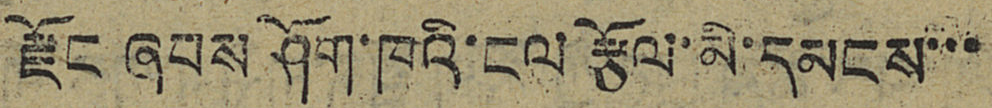རྫོང ཞབས ཤོག་ཁའི་ངལ་རྩོལ་མི་དམངས་་་
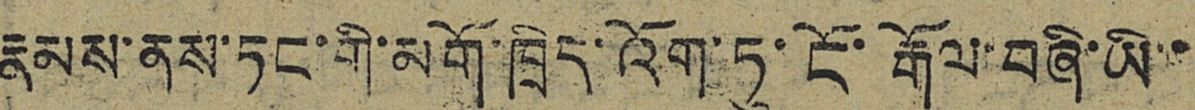རྣམས་ནས་ཏང་གི་མགོ་ཁྲིད་འོག་ཏུ་ངོ་རྒོལ་བཞི་ཡི་་
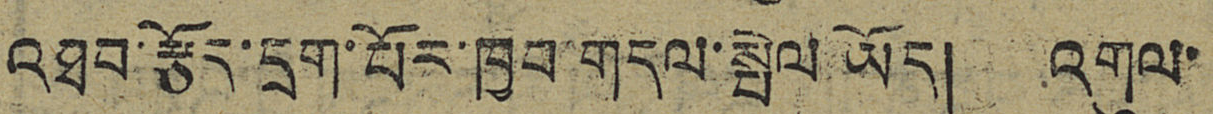འཐབ་རྩོད་དྲག་པོར་ཁྱབ་གདལ་སྤེལ ཡོད། འགུལ་
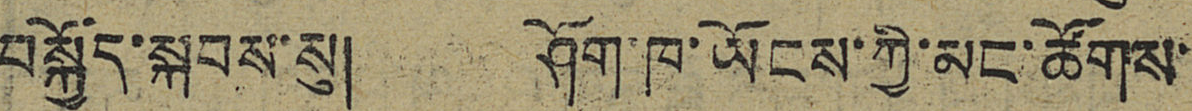བསྐྱོད་སྐབས་སུ། ཤོག་ཁ་ཡོངས་གྱི་མང་ཚོགས་
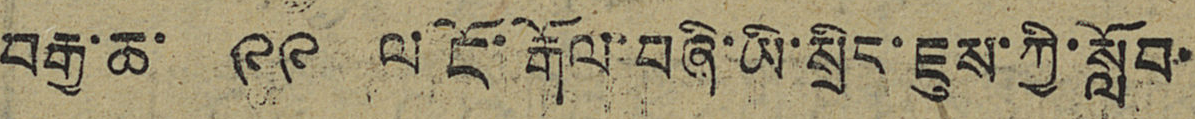བརྒྱ་ཆ་ ༩༩ ལ་ངོ་རྒོལ་བཞི་ཡི་སྲིང་ཇུས་ཀྱི་སློབ་
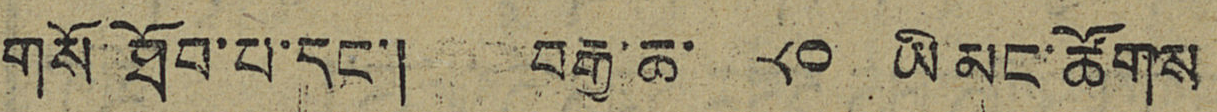གསོ་ཐོབ་པ་དང་། བརྒྱ་ཆ་ ༨༠ ཡི་མང་ཚོགས
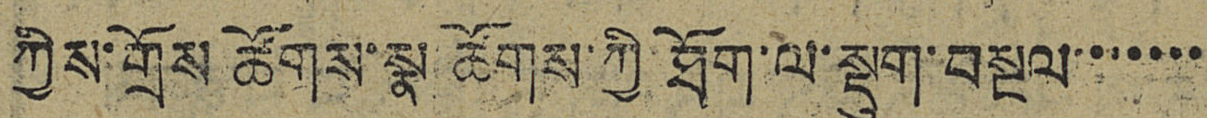ཀྱིས་གྲོས་ཚོགས་སྣ ཚོགས་ཀྱི་ཐོག་ལ་སྡུག་བསྔལ་་་་་་་
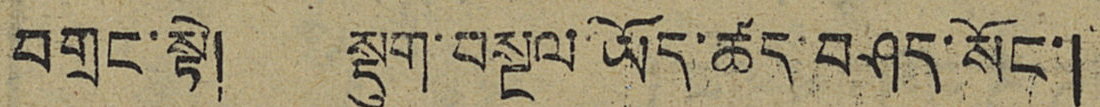བགྲང་སྟེ། སྡུག་བསྔལ་ཡོད་ཚད་བཤད་སོང་།
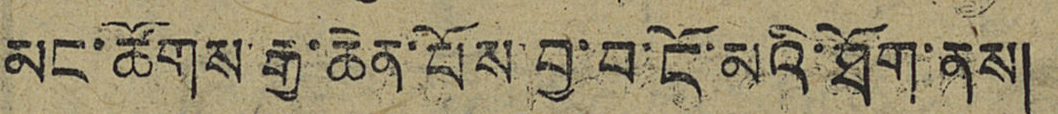མང་ཚོགས་རྒྱ་ཆེན་པོས་བྱས་བ་ངོ་མའི་ཐོག་ནས།
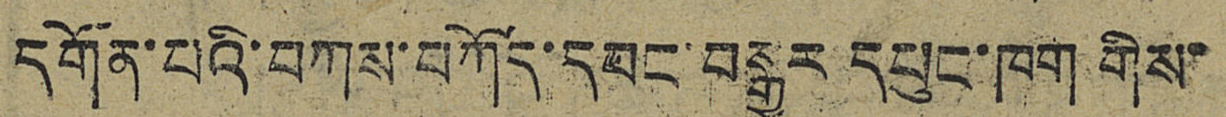དགོན་པའི་བཀས་བཀོད་དབང་བསྒྱུར་དཔུང་ཁག་གིས་
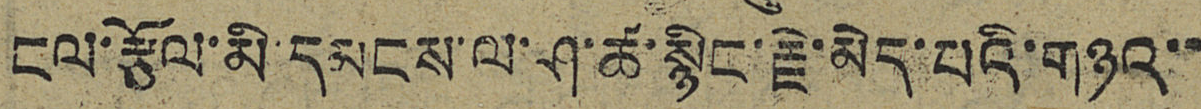ངལ་རྩོལ་མི་དམངས་ལ་ཤ་ཚ་སྙིང་རྗེ་མེད་པའི་གཉའ་་
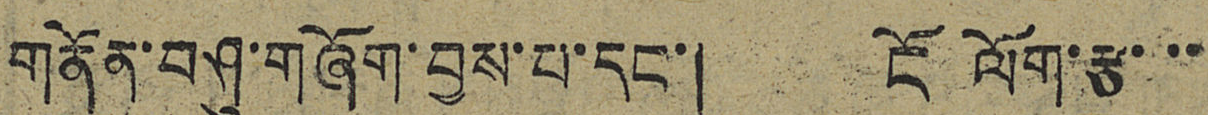གནོན་བཤུ་གཞོག་བྱས་པ་དང་། ངོ ལོག་རྩ་་་
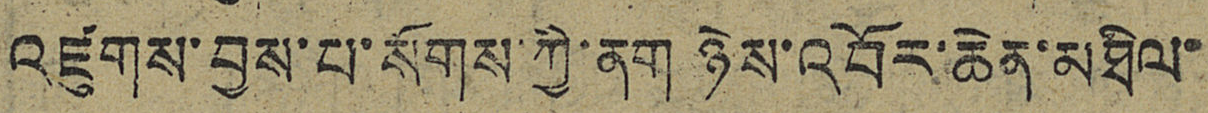འཛུགས་བྱས་པ་སོགས་ཀྱི་ནག ཉེས་འབོར་ཆེན་མཐིལ་
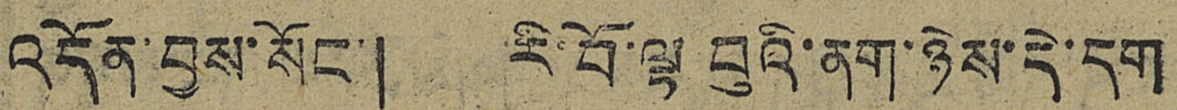འདོན་བྱས་སོང་། རི་བོ་ལྟ བུའི་ནག་ཉེས་དེ་དག
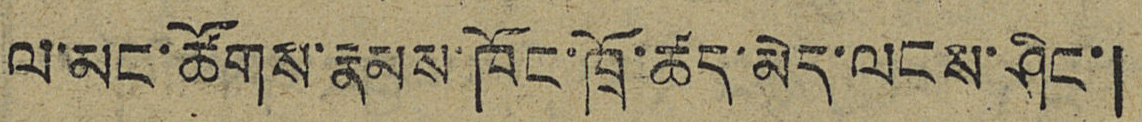ལ་མང་ཚོགས་རྣམས་ཁོང་ཁྲོ་ཚད་མེད་ལངས་ཤིང་།
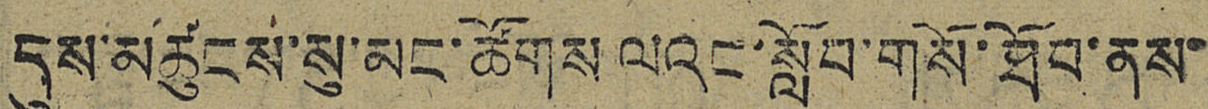དུས་མཚུངས་སུ་མང་ཚོགས་ལའང་སློབ་གསོ་ཐོབ་ནས་
